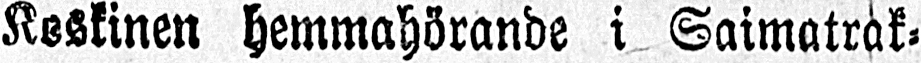Koskinen hemmahörande i Saimatrak-
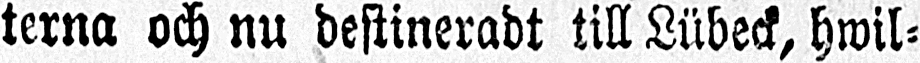terna och nu destineradt till Lübeck, hwil-
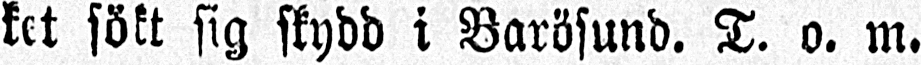ket sökt sig skydd i Barösund. T. o. m.
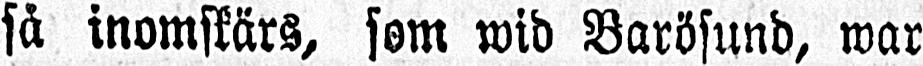så inomskärs, som wid Barösund, war
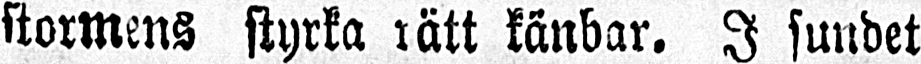stormens styrka rätt känbar. I sundet
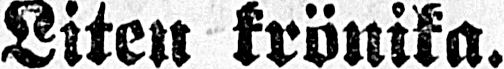Liten krönika.
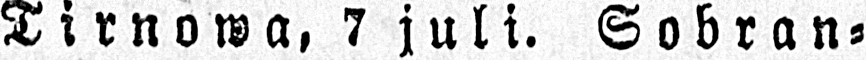Tirnowa, 7 juli. Sobran-
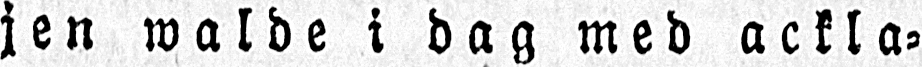jen walde i dag med ackla-
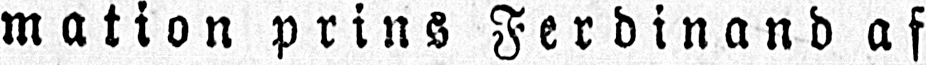mation prins Ferdinand af
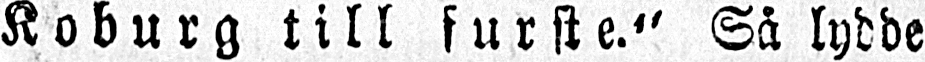Koburg till furste." Så lydde
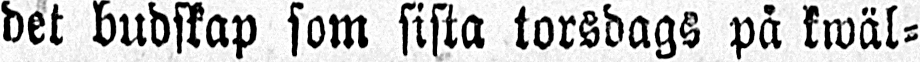det budskap som sista torsdags på kwäl-
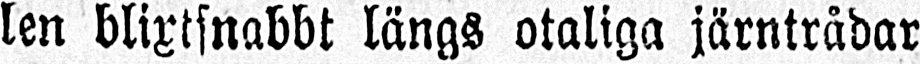len blixtsnabbt längs otaliga järntrådar
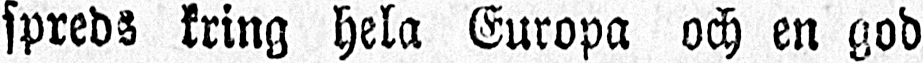spreds kring hela Europa och en god
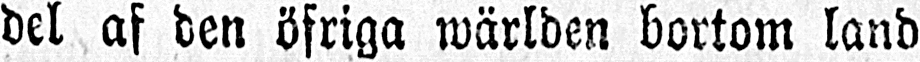del af den öfriga wärlden bortom land
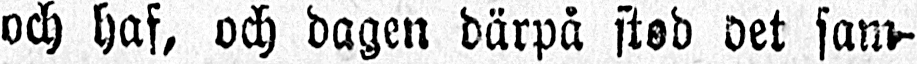och haf, och dagen därpå stod det sam-
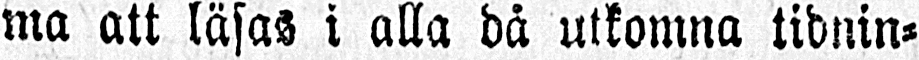ma att läsas i alla då utkomna tidnin-
